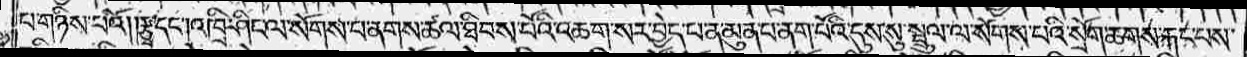པ་གཉིས་པའོ། །རྩྭ་དང༌། འཁྲི་ཤིང་ལ་སོགས་པ་ནགས་ཚལ་ཐིབས་པོའི་འཆག་སར་བྱེད་པ་ན་མུན་པ་ནག་པོའི་དུས་སུ་སྦྲུལ་ལ་སོགས་པའི་སྲོག་ཆགས་རྐང་པས་
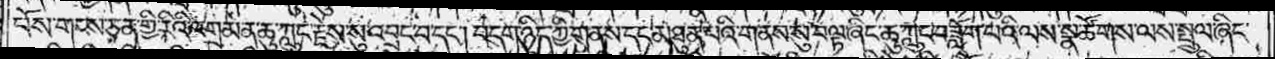པོས་གངས་ཅན་གྱི་རིའི་འགྲམ་ན་ཆུ་ཀླུང་རྗེས་སུ་འབྲང་བ་དང༌། བདག་ཉིད་ཀྱི་གནས་དང་མཐུན་པའི་གནས་སུ་བལྟ་ཞིང་ཆུ་ཀླུང་བཟློག་པའི་ལས་སྣ་ཚོགས་ལས་སྤྲུལ་ཞིང་
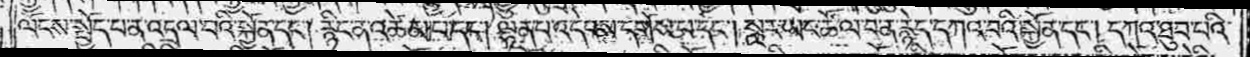ལོངས་སྤྱོད་པ་ན་འདྲལ་བའི་སྐྱོན་དང༌། རྙིང་ན་འཚེམ་པ་དང༌། ལྷན་པ་འདེབས་དགོས་པ་དང༌། སླར་ཡང་ཚོལ་བ་ན་རྙེད་དཀའ་བའི་སྐྱོན་དང༌། དཀའ་ཐུབ་པའི་
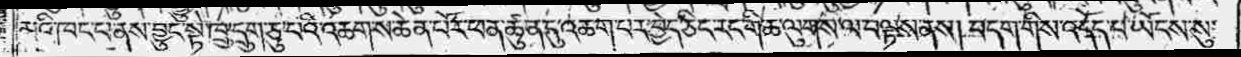མའི་ཁང་པ་ནས་བྱུང་སྟེ་ཁྲུ་དྲུག་ཅུ་པའི་འཆགས་ཆེན་པོར་ཕན་ཚུན་དུ་འཆག་པར་བྱེད་ཅིང་རང་གི་ཆ་ལུགས་ལ་བལྟས་ནས། བདག་གིས་འདོད་པ་ཡོངས་སུ་
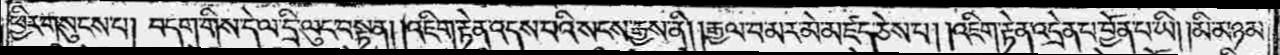ཕྱིར་གསུངས་པ། བདག་གིས་དེ་ལ་དྲི་ལུང་བསྟན། །འཇིག་རྟེན་འདས་པའི་སངས་རྒྱས་ནི། །རྒྱལ་བ་མར་མེ་མཛད་ཅེས་པ། །འཇིག་རྟེན་འདྲེན་པ་བྱོན་པ་ཡི། །མི་མཉམ་
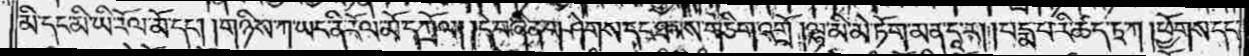མི་དང་མི་ཡི་རོལ་མོ་དང༌། །གཉིས་ཀ་ཡང་ནི་རོལ་མོ་དཀྲོལ། །དེ་བཞིན་གཤེགས་དང་ཐབས་གཅིག་འགྲོ་།ལྷ་མི་མེ་ཏོག་མན་དཱ་ར། །པདྨ་པ་རི་ཚད་ཏྲ་ཀ །ཕྱོགས་དང་
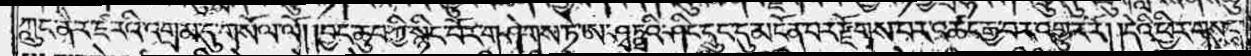ཀླུང་ནཻར་ཛ་རའི་འགྲམ་དུ་གསོལ་ལོ། །བྱང་ཆུབ་ཀྱི་སྙིང་པོར་གཤེགས་ཏེ་ཨ་ཤྭཏྠའི་ཤིང་དྲུང་དུ་མངོན་པར་རྫོགས་པར་འཚང་རྒྱ་བར་འགྱུར་རོ། །དེའི་ཕྱིར་གསུངས་
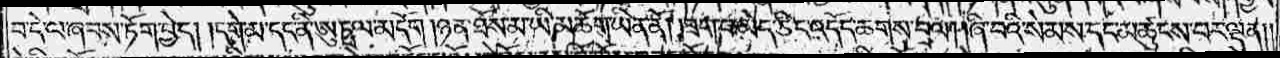བ་དེ་ལ་ཞབས་ཏོག་བྱེད། །དགེ་མ་དང་ནི་ཨུཏྤལ་མདོག །ཉན་ཐོས་མ་ཡི་མཆོག་ཡིན་ནོ། །ཕྲག་པ་མེད་ཅིང་འདོད་ཆགས་བྲལ། །ཞི་བའི་སེམས་དང་མཚུངས་པར་ལྡན༎
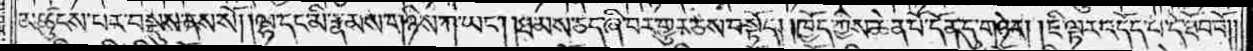མཚུངས་པར་བསྡུས་ནས་སོ། །ལྷ་དང་མི་རྣམས་གཉིས་ཀ་ཡང༌། །ཐམས་ཅད་ཞི་བར་གྱུར་ཅེས་བསྟོད། །ཁྱོད་ཀྱིས་ཆེན་པོ་དོན་དུ་གཉེར། །ཇི་ལྟར་འདོད་པ་དེ་ཐོབ་བོ༎
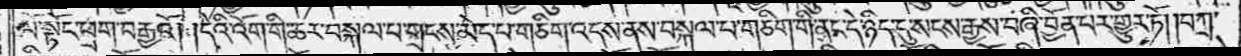ལོ་སྟོང་ཕྲག་བརྒྱའོ། །དེའི་འོག་གི་ཆར་བསྐལ་པ་གྲངས་མེད་པ་གཅིག་འདས་ནས་བསྐལ་པ་གཅིག་གི་ནང་དེ་ཉིད་དུ་སངས་རྒྱས་བཞི་བྱོན་པར་གྱུར་ཏོ། །བཀྲ་
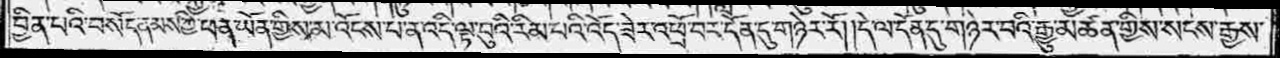བྱིན་པའི་བསོད་ནམས་ཀྱི་ཕན་ཡོན་གྱིས་མ་འོངས་པ་ན་འདི་ལྟ་བུའི་རིམ་པའི་འོད་ཟེར་འཕྲོ་བར་དོན་དུ་གཉེར་རོ། །དེ་ལ་དོན་དུ་གཉེར་བའི་རྒྱུ་མཚན་གྱིས་སངས་རྒྱས་
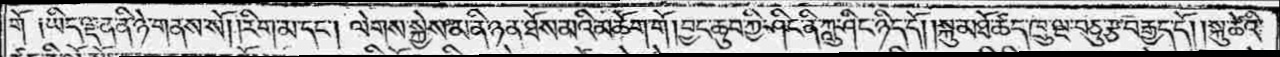གོ་༑ཡིད་ལྡན་ནི་ཉེ་གནས་སོ། །རིག་མ་དང༌། ལེགས་སྐྱེས་མ་ནི་ཉན་ཐོས་མའི་མཆོག་གོ །བྱང་ཆུབ་ཀྱི་ཤིང་ནི་ཀླུ་ཤིང་ཉིད་དོ། །སྐུ་མཐོ་ཚད་ཁྲུ་ལྔ་བཅུ་རྩ་བརྒྱད་དོ། །སྐུ་ཚེའི་
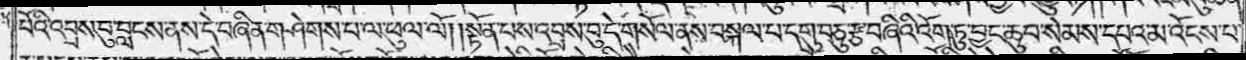པོའི་འབྲས་བུ་བླངས་ནས་དེ་བཞིན་གཤེགས་པ་ལ་ཕུལ་ལོ། །སྟོན་པས་འབྲས་བུ་དེ་གསོལ་ནས་བསྐལ་པ་དགུ་བཅུ་རྩ་བཞིའི་འོག་ཏུ་བྱང་ཆུབ་སེམས་དཔའ་མ་འོངས་པ་
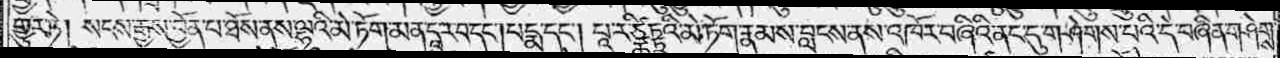གྱུར་ཏེ། སངས་རྒྱས་བྱོན་པ་ཐོས་ནས་ལྷའི་མེ་ཏོག་མན་དཱ་ར་བ་དང༌། པདྨ་དང༌། པཱ་ར་ཙྪིཏྟྲའི་མེ་ཏོག་རྣམས་བླངས་ནས་འཁོར་བཞིའི་ནང་དུ་གཤེགས་པའི་དེ་བཞིན་གཤེགས་
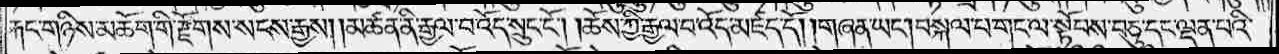རྐང་གཉིས་མཆོག་གི་རྫོགས་སངས་རྒྱས། །མཚན་ནི་རྒྱལ་བ་འོད་སྲུང་ངོ༌། །ཆོས་ཀྱི་རྒྱལ་བ་འོད་མཛད་དོ། །གཞན་ཡང༌། བསྐལ་པ་གང་ལ་སྟོབས་བཅུ་དང་ལྡན་པའི་
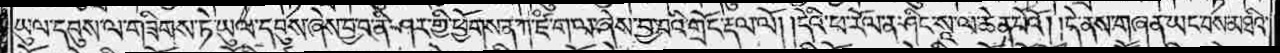ཡུལ་དབུས་ལ་གཟིགས་ཏེ་ཡུལ་དབུས་ཞེས་བྱ་བ་ནི་ཤར་གྱི་ཕྱོགས་ན་ཀ་ཛཾ་ག་ལ་ཞེས་བྱ་བའི་གྲོང་རྡལ་ལོ། །དེའི་ཕ་རོལ་ན་ཤིང་སཱ་ལ་ཆེན་པོའོ། །དེ་ནས་གཞན་ཡང་བས་མཐའི་
